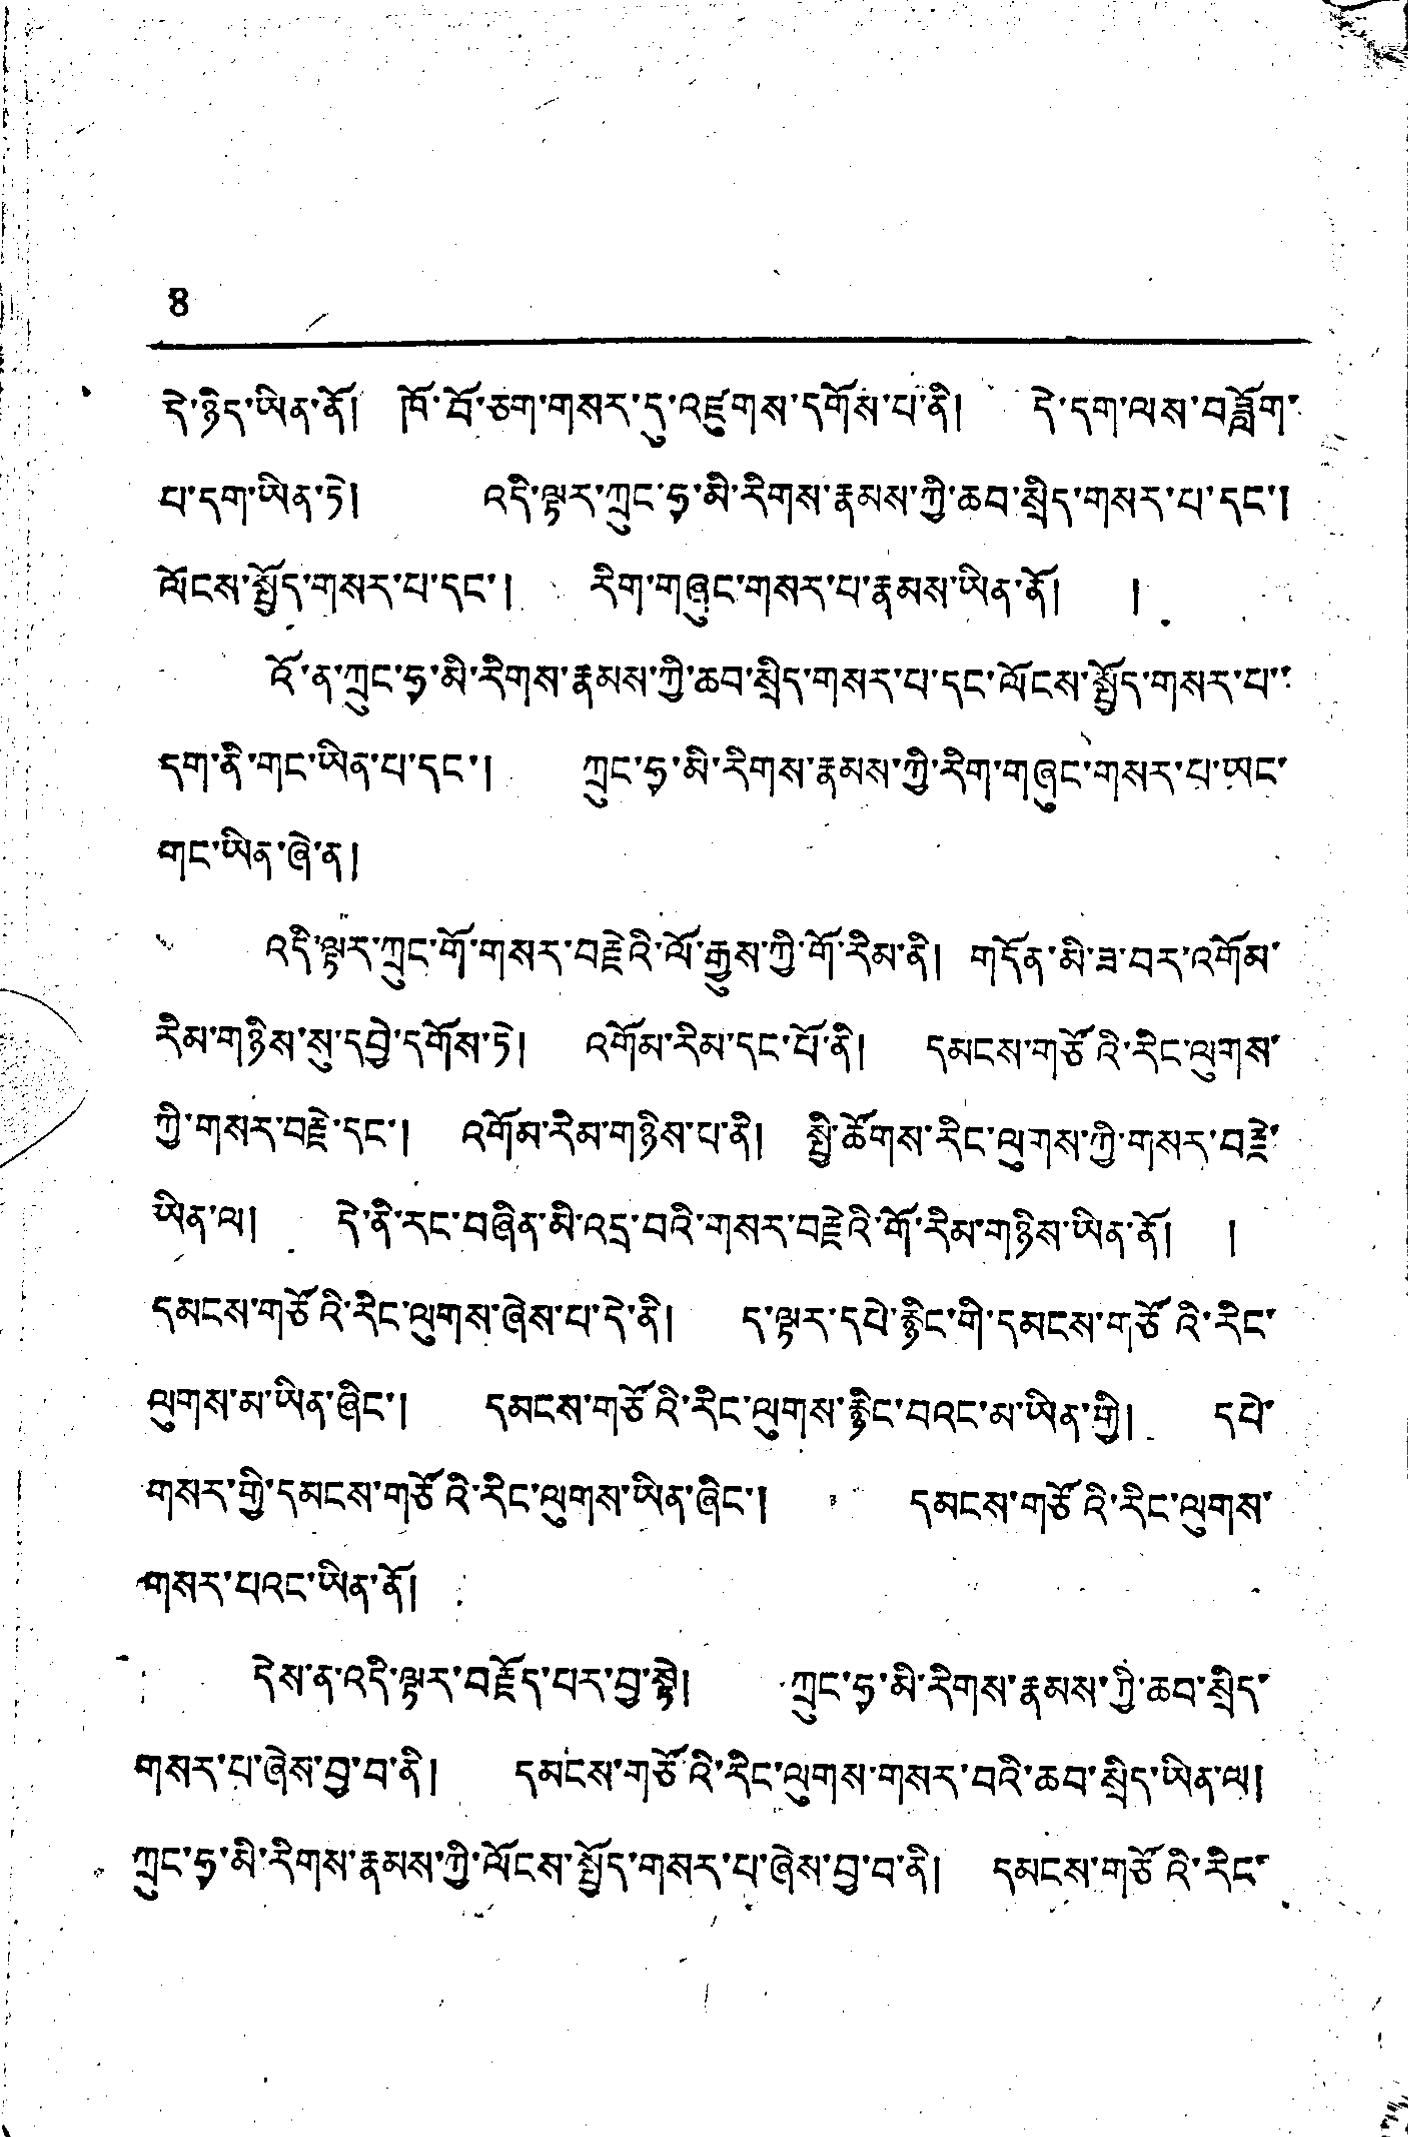8
དེ་ཉིད་ཡིན་ནོ། ཁོ་བོ་ཅག་གསར་དུ་འཛུགས་དགོས་པ་ནི། དེ་དག་ལས་བཟློག་
པ་དག་ཡིན་ཏེ། འདི་ལྟར་ཀྲུང་ཧྭ་མི་རིགས་རྣམས་ཀྱི་ཆབ་སྲིད་གསར་པ་དང་།
ལོངས་སྤྱོད་གསར་པ་དང་། རིག་གཞུང་གསར་པ་རྣམས་ཡིན་ནོ། །
འོ་ན་ཀྲུང་ཧྭ་མི་རིགས་རྣམས་ཀྱི་ཆབ་སྲིད་གསར་པ་དང་ལོངས་སྤྱོད་གསར་པ་་
དག་ནི་གང་ཡིན་པ་དང་། ཀྲུང་ཧྭ་མི་རིགས་རྣམས་ཀྱི་རིག་གཞུང་གསར་པ་ཡང་
གང་ཡིན་ཞེ་ན།
འདི་ལྟར་ཀྲུང་གོ་གསར་བརྗེའི་ལོ་རྒྱུས་ཀྱི་གོ་རིམ་ནི། གདོན་མི་ཟ་བར་འགོམ་
རིམ་གཉིས་སུ་དབྱེ་དགོས་ཏེ། འགོམ་རིམ་དང་པོ་ནི། དམངས་གཙོའི་རིང་ལུགས་
ཀྱི་གསར་བརྗེ་དང་། འགོམ་རིམ་གཉིས་པ་ནི། སྤྱི་ཚོགས་རིང་ལུགས་ཀྱི་གསར་བརྗེ་
ཡིན་ལ། དེ་ནི་རང་བཞིན་མི་འདྲ་བའི་གསར་བརྗེའི་གོ་རིམ་གཉིས་ཡིན་ནོ། །
དམངས་གཙོའི་རིང་ལུགས་ཞེས་པ་དེ་ནི། ད་ལྟར་དཔེ་རྙིང་གི་དམངས་གཙོའི་རིང་
ལུགས་མ་ཡིན་ཞིང་། དམངས་གཙོའི་རིང་ལུགས་རྙིང་བའང་མ་ཡིན་གྱི། དཔེ་
གསར་གྱི་དམངས་གཙོའི་རིང་ལུགས་ཡིན་ཞིང་། དམངས་གཙོའི་རིང་ལུགས་
གསར་པའང་ཡིན་ནོ།
དེས་ན་འདི་ལྟར་བརྗོད་པར་བྱ་སྟེ། ཀྲུང་ཧྭ་མི་རིགས་རྣམས་གྱི་ཆབ་སྲིད་
གསར་པ་ཞེས་བྱ་བ་ནི། དམངས་གཙོའི་རིང་ལུགས་གསར་བའི་ཆབ་སྲིད་ཡིན་ལ།
ཀྲུང་ཧྭ་མི་རིགས་རྣམས་ཀྱི་ལོངས་སྤྱོད་གསར་པ་ཞེས་བྱ་བ་ནི། དམངས་གཙོའི་རིང་
